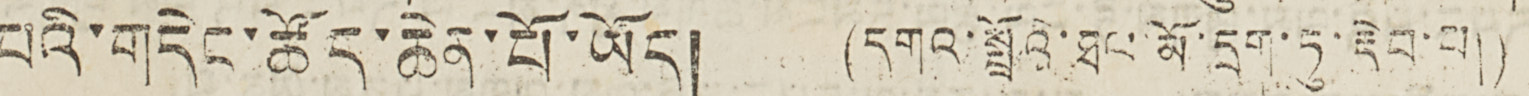པའི་གདེང་ཚོད་ཆེན་པོ་ཡོད། (དགའ་སྤྲོའི་ཐལ་མོ་དྲག་ཏུ་རྡེབ་པ།)
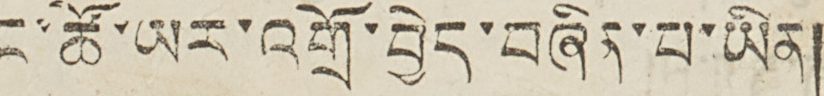ང་ཚོ་ཡར་འགྲོ་བྱེད་བཞིན་པ་ཡིན།
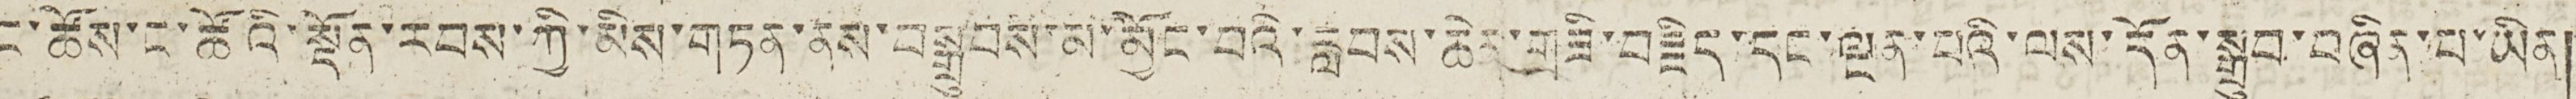ང་ཚོས་ང་ཚོའི་སྡོན་རབས་ཀྱི་མིས་གཏན་ནས་བསྒྲུབས་མ་མྱོང་བའི་རླབས་ཆེན་གཟི་བརྗིད་དང་ལྔན་པའི་ལས་དོན་སྒྲུབ་བཞིན་པ་ཡིན།
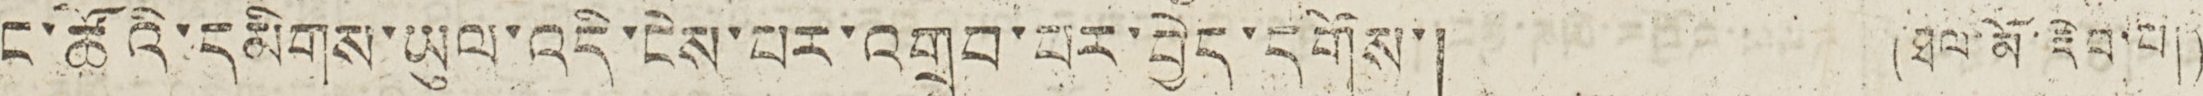ང་ཚོའི་དམིགས་ཡུལ་འདི་ངེས་པར་འགྲུབ་པར་བྱེད་དགོས་། (ཐལ་མོ་རྡེབ་པ།)
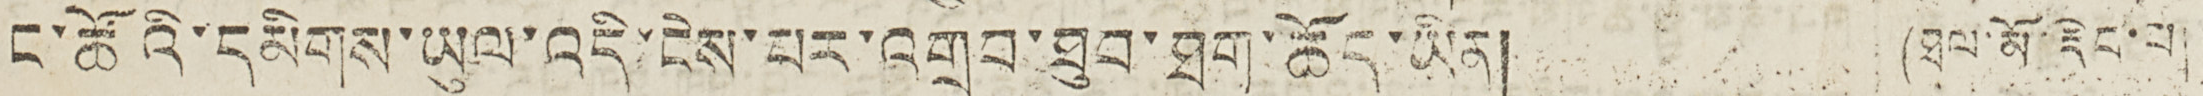ང་ཚོའི་དམིགས་ཡུལ་འདི་ངེས་པར་འགྲུབ་ཐུབ་ཐག་ཆོད་ཡིན། (ཐལ་མོ་རྡེབ་པ།)
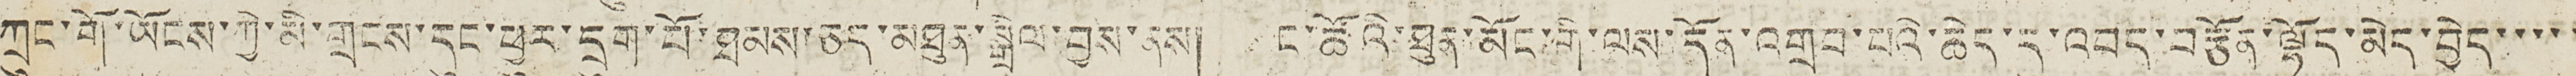ཀྲུང་གོ་ཡོངས་ཀྱི་མི་གྲངས་དུང་ཕྱུར་དྲུག་པོ་ཐམས་ཅད་མཐུན་སྒྲིལ་བྱས་ནས། ང་ཚོའི་ཐུན་མོང་གི་ལས་དོན་འགྲུབ་པའི་ཆེད་དུ་འབད་བརྩོན་ལྷོད་མེད་བྱེད་་་་་
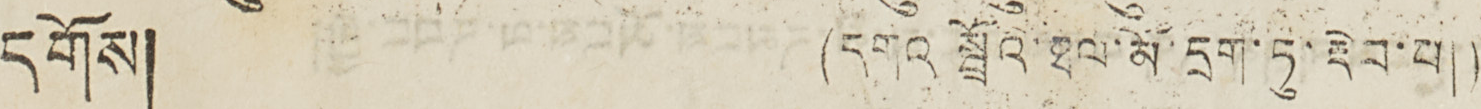དགོས། (དགའ་སྤྲོའི་ཐལ་མོ་དྲག་ཏུ་རྡེབ་པ།)
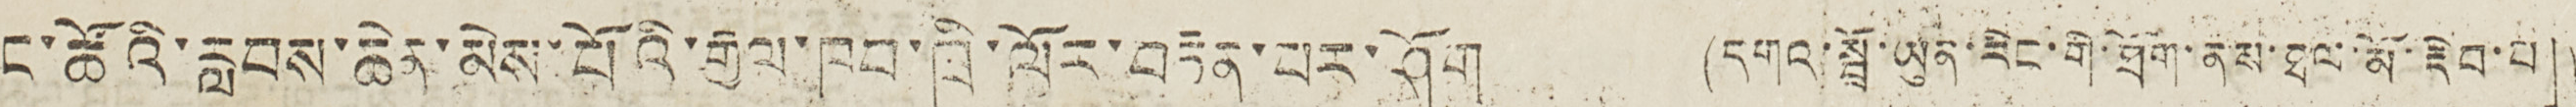ང་ཚོའི་རླབས་ཆེན་མེས་པོའི་རྒྱལ་ཁབ་ཁྲི་ལོར་བརྟན་པར་ཤོག (དགའ་སྤྲོ་ཡུན་རིང་གི་ཐོག་ནས་ཐལ་མོ་རྡེབ་པ།)
